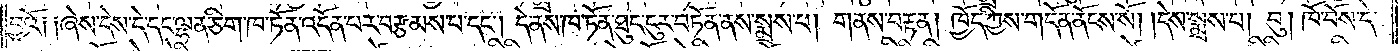བྱའོ༑ ༑ཞེས་དེས་དེ་དང་ལྷན་ཅིག་ཁ་ཏོན་འདོན་པར་བརྩམས་པ་དང༌། དེ་ནས་ཁ་ཏོན་ཐུང་ངུར་བཏོན་ནས་སྨྲས་པ། གནས་བརྟན། ཁྱོད་ཀྱིས་གདོན་ནོངས་སོ། །དེས་སྨྲས་པ། བུ། ཁོ་བོས་དེ་
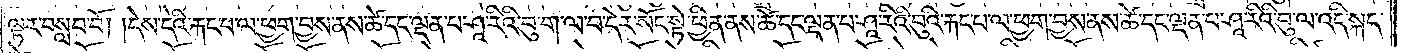ལྟར་བསླབ་བོ། །དེས་དེའི་རྐང་པ་ལ་ཕྱག་བྱས་ནས་ཚེ་དང་ལྡན་པ་ཤཱ་རིའི་བུ་ག་ལ་བ་དེར་སོང་སྟེ་ཕྱིན་ནས་ཚེ་དང་ལྡན་པ་ཤཱ་རིའི་བུའི་རྐང་པ་ལ་ཕྱག་བྱས་ནས་ཚེ་དང་ལྡན་པ་ཤཱ་རིའི་བུ་ལ་འདི་སྐད་
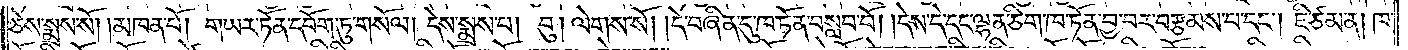ཅེས་སྨྲས་སོ། །མཁན་པོ། གཡར་ཏོན་དབོག་ཏུ་གསོལ། དེས་སྨྲས་པ། བུ། ལེགས་སོ། །དེ་བཞིན་དུ་ཁ་ཏོན་བསླབ་བོ། །དེས་དེ་དང་ལྷན་ཅིག་ཁ་ཏོན་བྱ་བར་བརྩམས་པ་དང༌། ཇི་ཙམ་ན། ཁ་
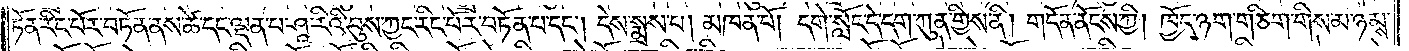ཏོན་རིང་པོར་བཏོན་ནས་ཚེ་དང་ལྡན་པ་ཤཱ་རིའི་བུས་ཀྱང་རིང་པོར་བཏོན་པ་དང༌། དེས་སྨྲས་པ། མཁན་པོ། དགེ་སློང་དེ་དག་ཀུན་གྱིས་ནི། གདོན་ནོངས་ཀྱི། ཁྱོད་ཉག་གཅིག་གིས་མ་ཉམས་
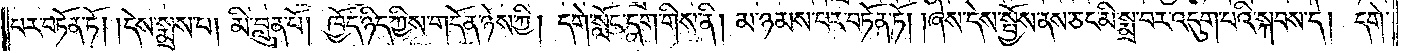པར་བཏོན་ཏོ། །དེས་སྨྲས་པ། མི་བླུན་པོ། ཁྱོད་ཉིད་ཀྱིས་གདོན་ཉེས་ཀྱི། དགེ་སློང་དག་གིས་ནི། མ་ཉམས་པར་བཏོན་ཏོ། །ཞེས་དེས་སྤྱོས་ནས་ཅང་མི་སྨྲ་བར་འདུག་པའི་སྐབས་དེ། དགེ་
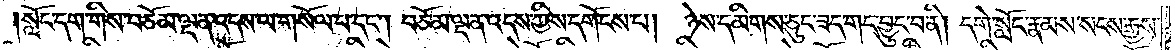སློང་དག་གིས་བཅོམ་ལྡན་འདས་ལ་གསོལ་པ་དང༌། བཅོམ་ལྡན་འདས་ཀྱིས་དགོངས་པ། ཉེས་དམིགས་ཅུང་ཟད་གང་བྱུང་བ་ནི། དགེ་སློང་རྣམས་སངས་རྒྱས་
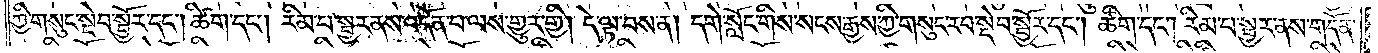ཀྱི་གསུང་སྡེབ་སྦྱོར་དང༌། ཚིག་དང༌། རིམ་པ་སྦྱར་ནས་འདོན་པ་ལས་གྱུར་གྱི། དེ་ལྟ་བས་ན། དགེ་སློང་གིས་སངས་རྒྱས་ཀྱི་གསུང་རབ་སྡེབ་སྦྱོར་དང༌། ཚིག་དང༌། རིམ་པ་སྦྱར་ནས་གདོན་
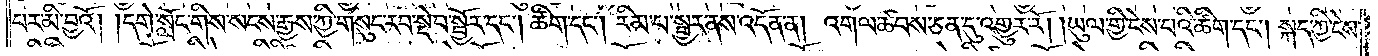བར་མི་བྱའོ། །དགེ་སློང་གིས་སངས་རྒྱས་ཀྱི་གསུང་རབ་སྡེབ་སྦྱོར་དང༌། ཚིག་དང༌། རིམ་པ་སྦྱར་ནས་འདོན་ན། འགལ་ཚབས་ཅན་དུ་འགྱུར་རོ། །ཡུལ་གྱི་ངེས་པའི་ཚིག་དང༌། སྐད་ཀྱི་ངེས་
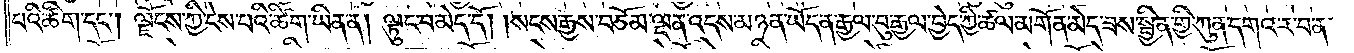པའི་ཚིག་དང༌། ལྗོངས་ཀྱི་ངེས་པའི་ཚིག་ཡིན་ན། ལྟུང་བ་མེད་དོ། །སངས་རྒྱས་བཅོམ་ལྡན་འདས་མཉན་ཡོད་ན་རྒྱལ་བུ་རྒྱལ་བྱེད་ཀྱི་ཚལ་མགོན་མེད་ཟས་སྦྱིན་གྱི་ཀུན་དགའ་ར་བ་ན་
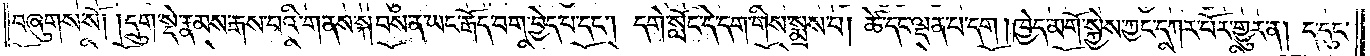བཞུགས་སོ། །དྲུག་སྡེ་རྣམས་རྒས་པའི་གནས་སྐབས་ན་ཡང་རྒོད་བག་བྱེད་པ་དང༌། དགེ་སློང་དེ་དག་གིས་སྨྲས་པ། ཚེ་དང་ལྡན་པ་དག །ཁྱེད་མགོ་སྐྱེས་ཀྱང་དཀར་པོར་གྱུར་ན། ད་དུང་
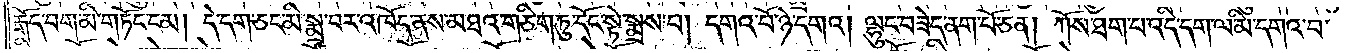རྒོད་བག་མི་གཏོང་ངམ། དེ་དག་ཅང་མི་སྨྲ་བར་འཁོད་ནས་མཐའ་གཅིག་ཏུ་དོང་སྟེ་སྨྲས་པ། དགའ་བོ་ཉེ་དགའ། ལྷུང་བཟེད་ནག་པོ་ཅན། ཀོས་ཐག་པ་འདི་དག་ལ་མི་དགའ་བ་
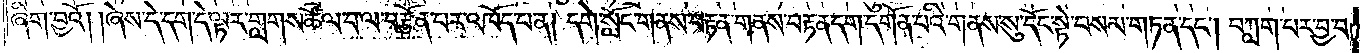ཞིག་བྱའོ། །ཞེས་དེ་དག་དེ་ལྟར་གླགས་ཚོལ་བ་ལ་བརྩོན་པར་འཁོད་པ་ན། དགེ་སློང་གནས་བརྟན་གནས་བརྟན་དག་དགོན་པའི་གནས་སུ་དོང་སྟེ་བསམ་གཏན་དང༌། བཀླག་པར་བྱ་བ་
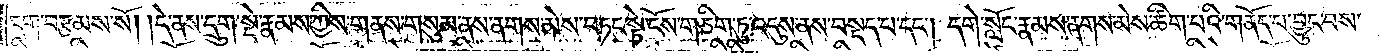དག་བརྩམས་སོ། །དེ་ནས་དྲུག་སྡེ་རྣམས་ཀྱིས་གནས་གསུམ་ནས་ནགས་མེས་བཏང་སྟེ་ངོས་གཅིག་ཏུ་འདུས་ནས་བསྡད་པ་དང༌། དགེ་སློང་རྣམས་ནགས་མེས་ཚིག་པའི་གནོད་པ་བྱུང་བས་
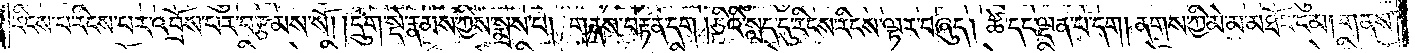རིངས་པ་རིངས་པར་འབྲོས་པར་བརྩམས་སོ། །དྲུག་སྡེ་རྣམས་ཀྱིས་སྨྲས་པ། གནས་བརྟན་དག །ཅིའི་སླད་དུ་རིངས་རིངས་ལྟར་བཞུད། ཚེ་དང་ལྡན་པ་དག །ནགས་ཀྱི་མེ་མ་མཐོང་ངམ། གནས་
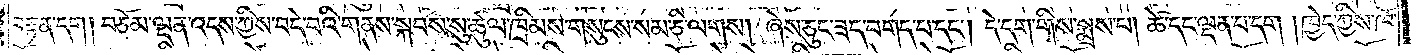བརྟན་དག །བཅོམ་ལྡན་འདས་ཀྱིས་བདེ་བའི་གནས་སྐབས་སུ་ཚུལ་ཁྲིམས་གསུངས་སམ་ཅི་ལགས། ཞེས་ཅུང་ཟད་བགད་པ་དང༌། དེ་དག་གིས་སྨྲས་པ། ཚེ་དང་ལྡན་པ་དག །ཁྱེད་ཀྱིས་ཁོ་
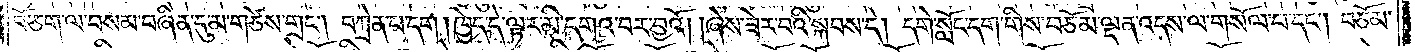བོ་ཅག་ལ་བསམ་བཞིན་དུ་མ་གཙེས་གྲང༌། བཀྲེན་པ་དག །ཁྱེད་དེ་ལྟར་མི་དགའ་བར་བྱའོ། །ཞེས་ཟེར་བའི་སྐབས་དེ། དགེ་སློང་དག་གིས་བཅོམ་ལྡན་འདས་ལ་གསོལ་པ་དང༌། བཅོམ་
